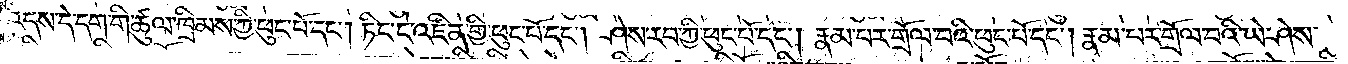འདས་དེ་དག་གི་ཚུལ་ཁྲིམས་ཀྱི་ཕུང་པོ་དང༌། ཏིང་ངེ་འཛིན་གྱི་ཕུང་པོ་དང༌། ཤེས་རབ་ཀྱི་ཕུང་པོ་དང༌། རྣམ་པར་གྲོལ་བའི་ཕུང་པོ་དང༌། རྣམ་པར་གྲོལ་བའི་ཡེ་ཤེས་
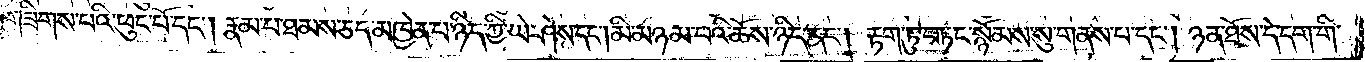གཟིགས་པའི་ཕུང་པོ་དང༌། རྣམ་པ་ཐམས་ཅད་མཁྱེན་པ་ཉིད་ཀྱི་ཡེ་ཤེས་དང༌། མི་མཉམ་པའི་ཆོས་ཉིད་དང༌། རྟག་ཏུ་བཏང་སྙོམས་སུ་གནས་པ་དང༌། ཉན་ཐོས་དེ་དག་གི་
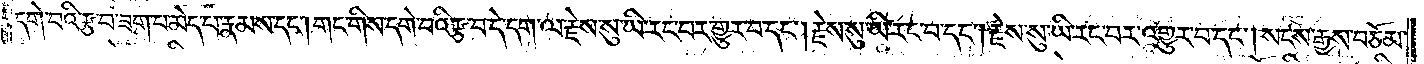དགེ་བའི་རྩ་བ་ཟག་པ་མེད་པ་རྣམས་དང༌། གང་གིས་དགེ་བའི་རྩ་བ་དེ་དག་ལ་རྗེས་སུ་ཡི་རང་བར་གྱུར་བ་དང༌། རྗེས་སུ་ཡི་རང་བ་དང༌། རྗེས་སུ་ཡི་རང་བར་འགྱུར་བ་དང༌། སངས་རྒྱས་བཅོམ་
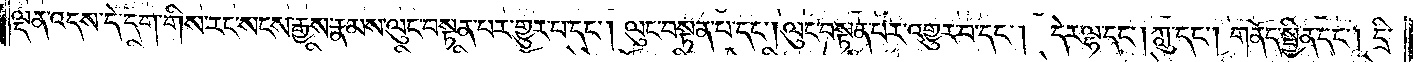ལྡན་འདས་དེ་དག་གིས་རང་སངས་རྒྱས་རྣམས་ལུང་བསྟན་པར་གྱུར་པ་དང༌། ལུང་བསྟན་པ་དང༌། ལུང་བསྟན་བར་འགྱུར་བ་དང༌། དེར་ལྷ་དང༌། ཀླུ་དང༌། གནོད་སྦྱིན་དང༌། དྲི་
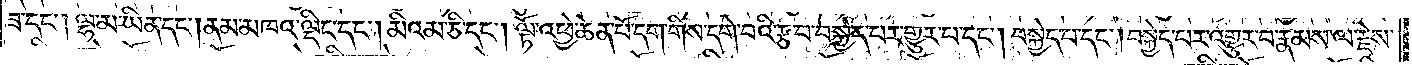ཟ་དང༌། ལྷ་མ་ཡིན་དང༌། ནམ་མཁའ་ལྡིང་དང༌། མིའམ་ཅི་དང༌། ལྟོ་འཕྱེ་ཆེན་པོ་དག་གིས་དགེ་བའི་རྩ་བ་བསྐྱེད་པར་གྱུར་པ་དང༌། བསྐྱེད་པ་དང༌། བསྐྱེད་པར་འགྱུར་བ་རྣམས་ལ་རྗེས་
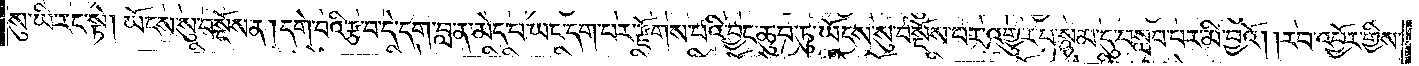སུ་ཡི་རང་སྟེ། ཡོངས་སུ་བསྔོས་ན། དགེ་བའི་རྩ་བ་དེ་དག་བླ་ན་མེད་པ་ཡང་དག་པར་རྫོགས་པའི་བྱང་ཆུབ་ཏུ་ཡོངས་སུ་བསྔོས་པར་འགྱུར་བ་སྙམ་དུ་བསླབ་པར་མི་བྱའོ། །རབ་འབྱོར་གྱིས་
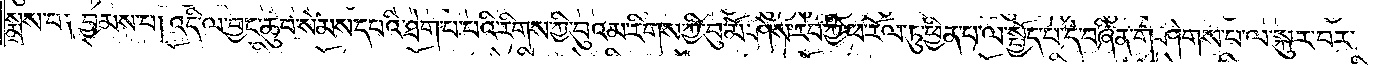སྨྲས་པ༑ བྱམས་པ། འདི་ལ་བྱང་ཆུབ་སེམས་དཔའི་ཐེག་པ་པའི་རིགས་ཀྱི་བུའམ་རིགས་ཀྱི་བུ་མོ་ཤེས་རབ་ཀྱི་ཕ་རོལ་ཏུ་ཕྱིན་པ་ལ་སྤྱོད་པ་དེ་བཞིན་གཤེགས་པ་ལ་སྐུར་བར་
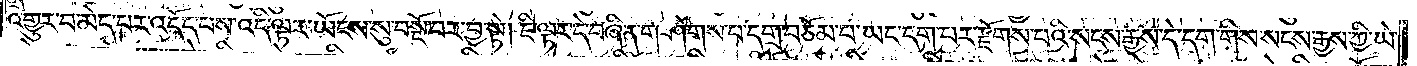འགྱུར་བ་མེད་པར་འདོད་པས་འདི་ལྟར་ཡོངས་སུ་བསྔོ་བར་བྱ་སྟེ། ཇི་ལྟར་དེ་བཞིན་གཤེགས་པ་དགྲ་བཅོམ་པ་ཡང་དག་པར་རྫོགས་པའི་སངས་རྒྱས་དེ་དག་གིས་སངས་རྒྱས་ཀྱི་ཡེ་
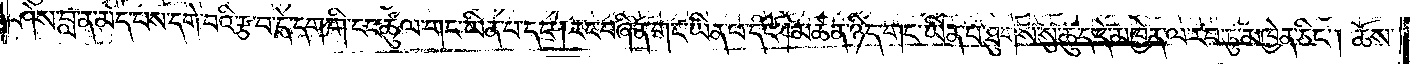ཤེས་བླ་ན་མེད་པས་དགེ་བའི་རྩ་བ་དེ་དག་གི་ངང་ཚུལ་གང་ཡིན་པ་དང༌། རང་བཞིན་གང་ཡིན་པ་དང༌། མཚན་ཉིད་གང་ཡིན་པ་ཐུགས་སུ་ཆུད་དེ་མཁྱེན་ལ་རབ་ཏུ་མཁྱེན་ཅིང༌། ཆོས་
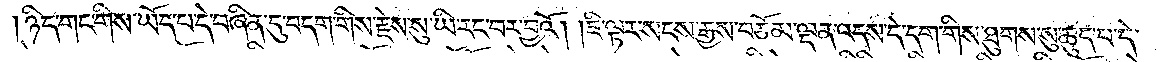ཉིད་གང་གིས་ཡོད་པ་དེ་བཞིན་དུ་བདག་གིས་རྗེས་སུ་ཡི་རང་བར་བྱའོ། །ཇི་ལྟར་སངས་རྒྱས་བཅོམ་ལྡན་འདས་དེ་དག་གིས་ཐུགས་སུ་ཆུད་པ་དེ་
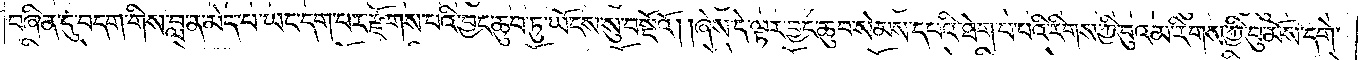བཞིན་དུ་བདག་གིས་བླ་ན་མེད་པ་ཡང་དག་པར་རྫོགས་པའི་བྱང་ཆུབ་ཏུ་ཡོངས་སུ་བསྔོའོ། །ཞེས་དེ་ལྟར་བྱང་ཆུབ་སེམས་དཔའི་ཐེག་པ་པའི་རིགས་ཀྱི་བུའམ་རིགས་ཀྱི་བུ་མོས་དགེ་
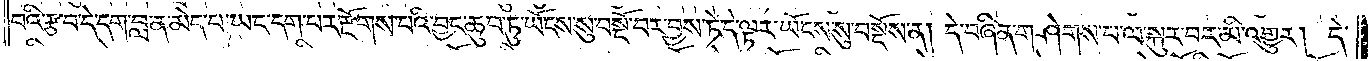བའི་རྩ་བ་དེ་དག་བླ་ན་མེད་པ་ཡང་དག་པར་རྫོགས་པའི་བྱང་ཆུབ་ཏུ་ཡོངས་སུ་བསྔོ་བར་བྱས་ཏེ་དེ་ལྟར་ཡོངས་སུ་བསྔོས་ན། དེ་བཞིན་གཤེགས་པ་ལ་སྐུར་པར་མི་འགྱུར། དེ་
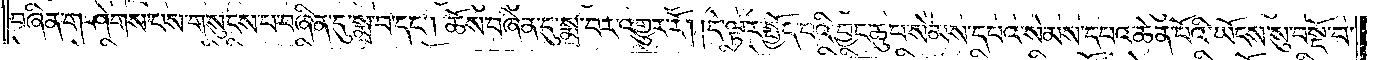བཞིན་གཤེགས་པས་གསུངས་པ་བཞིན་དུ་སྨྲ་བ་དང༌། ཆོས་བཞིན་དུ་སྨྲ་པར་འགྱུར་རོ། །དེ་ལྟར་སྤྱོད་པའི་བྱང་ཆུབ་སེམས་དཔའ་སེམས་དཔའ་ཆེན་པོའི་ཡོངས་སུ་བསྔོ་བ་
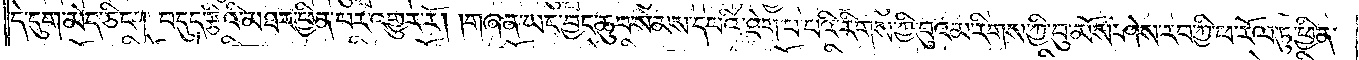དེ་དུག་མེད་ཅིང༌། བདུད་རྩིའི་མཐར་ཕྱིན་པར་འགྱུར་རོ། །གཞན་ཡང་བྱང་ཆུབ་སེམས་དཔའི་ཐེག་པ་པའི་རིགས་ཀྱི་བུའམ་རིགས་ཀྱི་བུ་མོས་ཤེས་རབ་ཀྱི་ཕ་རོལ་ཏུ་ཕྱིན་
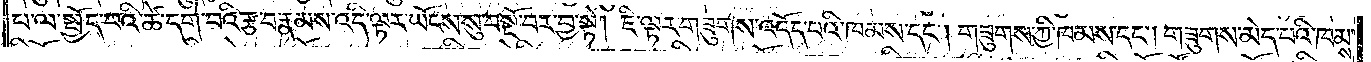པ་ལ་སྤྱོད་པའི་ཚེ་དགེ་བའི་རྩ་བ་རྣམས་འདི་ལྟར་ཡོངས་སུ་བསྔོ་བར་བྱ་སྟེ། ཇི་ལྟར་གཟུགས་འདོད་པའི་ཁམས་དང༌། གཟུགས་ཀྱི་ཁམས་དང༌། གཟུགས་མེད་པའི་ཁམས་
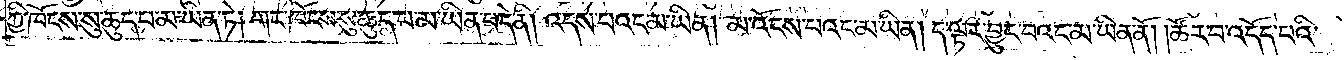ཀྱི་ཁོངས་སུ་ཆུད་པ་མ་ཡིན་ཏེ། གང་ཁོངས་སུ་ཆུད་པ་མ་ཡིན་པ་དེ་ནི། འདས་པའང་མ་ཡིན། མ་འོངས་པའང་མ་ཡིན། ད་ལྟར་བྱུང་བའང་མ་ཡིན་ནོ། །ཚོར་བ་འདོད་པའི་
